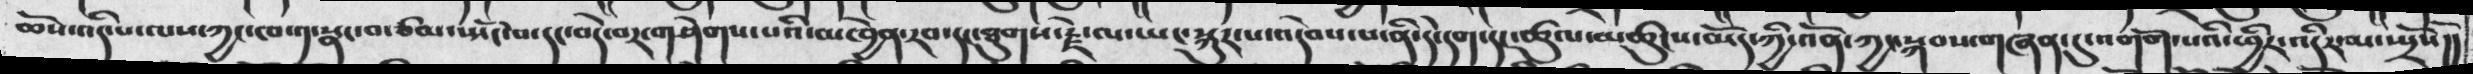ཆོས་འདི་པ་ལས་ཀྱང་ཁ ༡་སྣང་བ་ཙམ་ཡོང་བ་དག་བདེ་བར་གཤེགས་པའི་མཁྱེན་རབ་དང་ཐུགས་རྗེ་པ་ཡང་སྐུར་འདེབས་པ་ནི་དེ་དག་དང་ཚུལ་མཚུངས་མོད་ཀྱི་འོན་ཀྱང་སྐབས་གཞན་དུ་འགོག་པའི་ཕྱིར་འདིར་མ་སྤྲོསོ།།
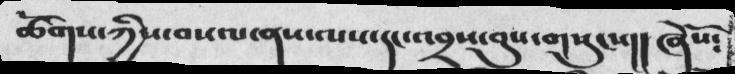ཚོགས་ཀྱིས་བསལ་ནས་ལས་དང་འབྲས་བུས་གསུངས།། ཞེསོ༴
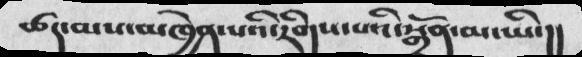ཚད་མས་མཁྱེན་པའི་རིགས་པའི་སྒྲོན་མ་ཡི་།།
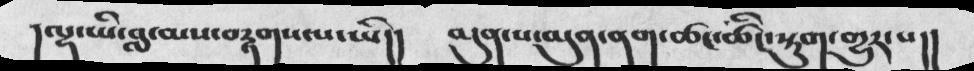།ལྷ་ཡི་བླ་མས་བརྟགས་པ་ཡི།།  མུན་པ་མུན་ནག་ཚང་ཚིང་སྟུག་གྱུར་པ།།
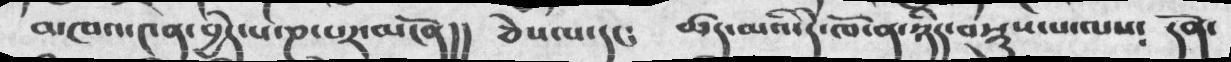མཁའ་༤ན་བྱེད་པ་ཎ་པར་མངོན།།  ཅེས་པ་དང༴   ཚད་མའི་དེ་ཁོ་ན་ཉིད་བསྡུས་པ་ལས༴  དོན་
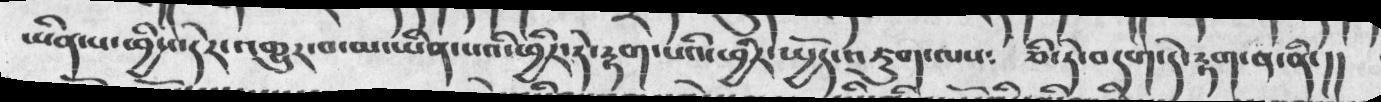ཡིན་པ་ཕྱིས་དེར་འགྱུར་བ་མ་ཡིན་པའི་ཕྱིར་དེ་རྟག་པའི་ཕྱིར་སྤྱོད་འཇུག་ལས༴  ཅི་ཏེ་བདག་དེ་རྟག་ན་ནི་།།
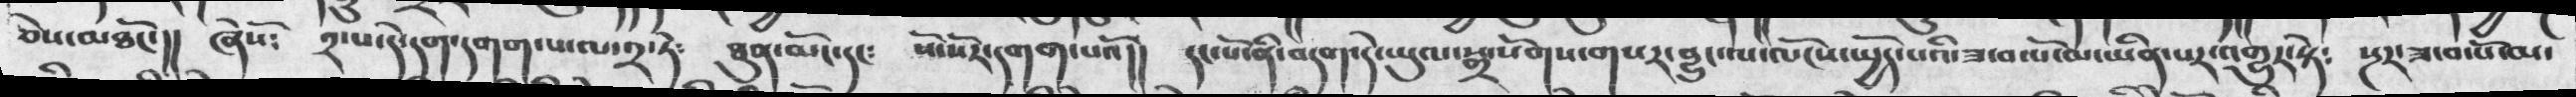ཅེས་མཐོང་།། ཞེསོ༴ ༢་པ་དེ་དག་དགག་པ་ལ་༢་ཏེ༴ ཐུན་མོང་དང༴ སོ་སོར་དགག་པའོ།། དང་པོ་ནི་བདག་དེ་ཡུལ་སྒྲ་སོགས་གསར་བྱུང་ལ་ལོངས་སྤྱོད་པའི་ཟ་བ་པོ་མ་ཡིན་པར་འགྱུར་སྟེ༴ སྔར་ཟ་བ་པོ་མ་
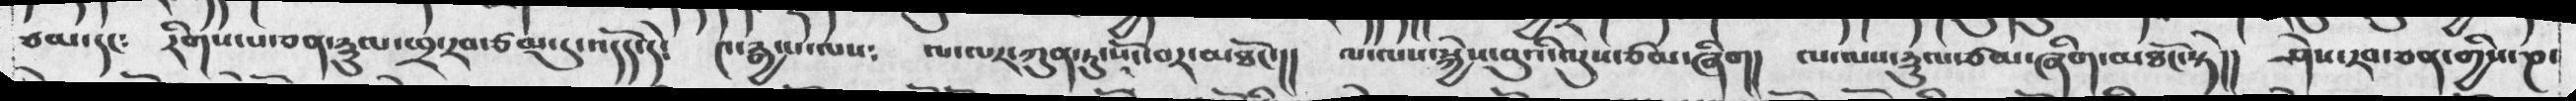ཙམ་དང༴  རིགས་པ་ཅན་རྡུལ་ཕྲ་རབ་ཙམ་དུ་འདོད་དེ༴  ༤་རྒྱ་པ་ལས༴  ལ་ལར་ཀུན་ཏུ་སོང་བར་མཐོང་།།  ལ་ལས་སྐྱེས་བུའི་ལུས་ཙམ་ཞིག།  ལ་ལས་རྡུལ་ཙམ་ཞིག་མཐོང་སྟེ།།  ཤེས་རབ་ཅན་གྱིས་ཎ་
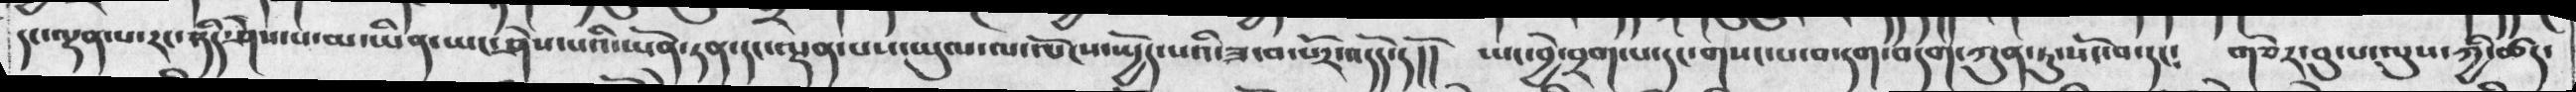དང་ལྡན་པ་རང་ཉིད་ཤེས་པ་མ་ཡིན་ཡང་ཤེས་པའི་ཡོན་ཏན་དང་ལྡན་པས་ཡུལ་ལ་ལོངས་སྤྱོད་པའི་ཟ་བ་པོར་འདོད་དོ།།  ཡང་བྱེ་བྲག་པ་དང་གསང་པ་བ་དག་བདག་ཀུན་ཏུ་སོང་བ་དང༴  གཅེར་བུ་པ་ལུས་ཀྱི་ཚད་
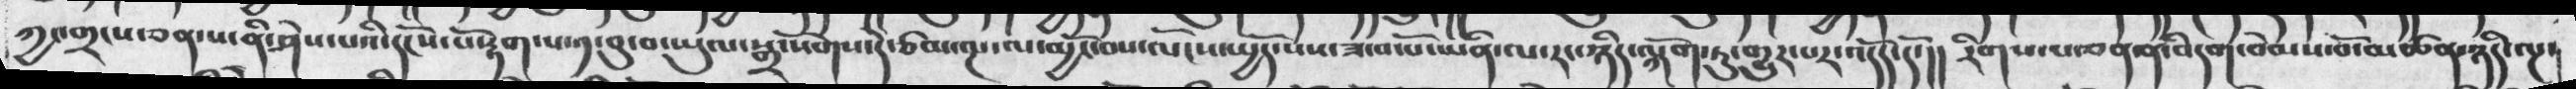ཀྱང་གྲངས་ཅན་པ་ནི་ཤེས་པའི་དངོས་པོ་རྟག་པ་༡་བུ་བ་ཡུལ་སྒྲ་སོགས་དེ་ཙམ་ལྔ་ལ་མྱོང་བས་ལོངས་སྤྱོད་པས་ཟ་བ་པོ་ཡིན་ལ་རང་ཉིད་ལྐོག་ཏུ་གྱུར་པར་འདོད་དོ་།། རིགས་པ་ཅན་ནི་བདག་བེམས་བོ་མཚན་ཉིད་ལྔ་
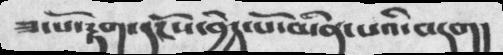ཟ་པོ་རྟག་དངོས་བྱེད་པོ་མིན་པའི་བདག།
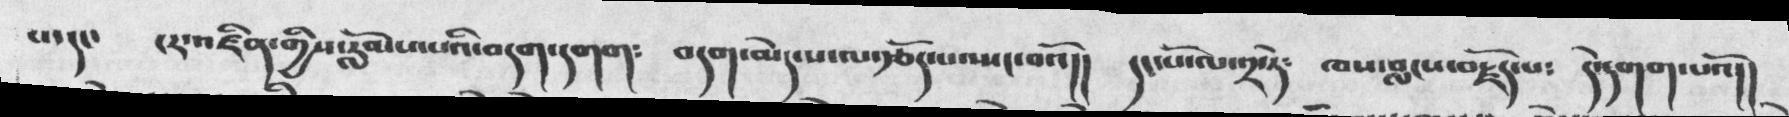པ་དང་  ངར་འཛིན་གྱིས་རློམས་པའི་བདག་དགག༴  བདག་མེད་པ་ལ་རྩོད་པ་སྤང་བའོ།།  དང་པོ་ལ་༢་ཏེ༴  ཁས་བླངས་བརྗོད་པ༴  དེ་དགག་པའོ།།
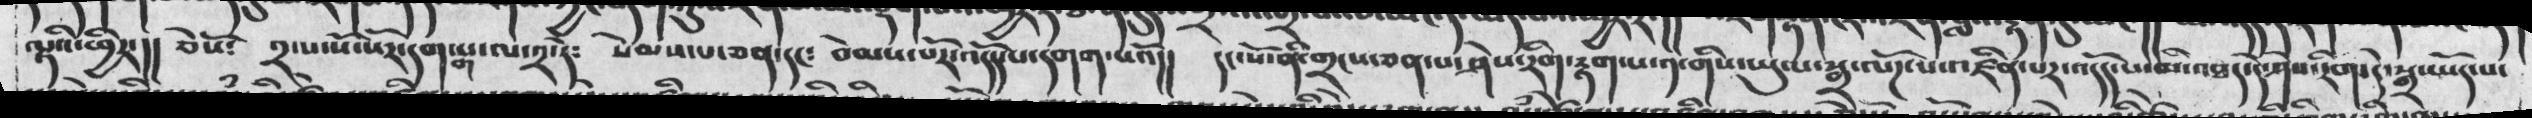ལྷའི་ཕྱིར་།།   ཅེསོ༴   ༢་པ་སོ་སོར་དགག་པ་ལ་༢་ཏེ༴  སེམས་པ་ཅན་དང༴  བེམས་པོར་འདོད་པ་དགག་པའོ།།   དང་པོ་ནི་གྲངས་ཅན་པ་ཤེས་རིག་རྟག་པ་༡་གིས་ཡུལ་སྒྲ་ལོཌ་པས་འཛིན་པར་འདོད་པ་མི་འཐད་དེ་ཤེས་རིག་དེ་སྒྲ་ཡོད་པ་
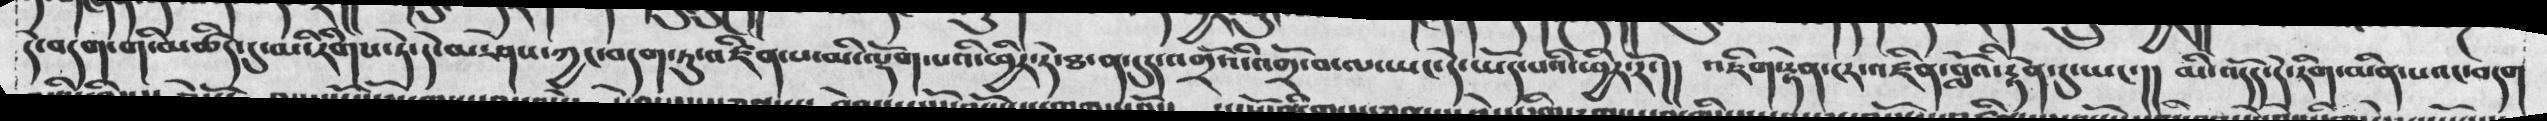དེ་བདག་གི་མཚིད་དུ་མི་རིགས་ཏེ་དེ་མ་ཤེས་ཀྱང་བདག་ཏུ་འཛིན་པ་མི་ལྡོག་པའི་ཕྱིར་ཏེ་ཐ་ན་དུད་འགྲོའི་འགྲོ་བ་ལ་ཡང་དེ་ཡོད་པའི་ཕྱིར་རོ་།།  འཛིག་རྟེན་ངར་འཛིན་བློའི་རྟེན་དུ་ཡང་།།   མི་འདོད་དེ་རིག་མིན་པའང་བདག་
